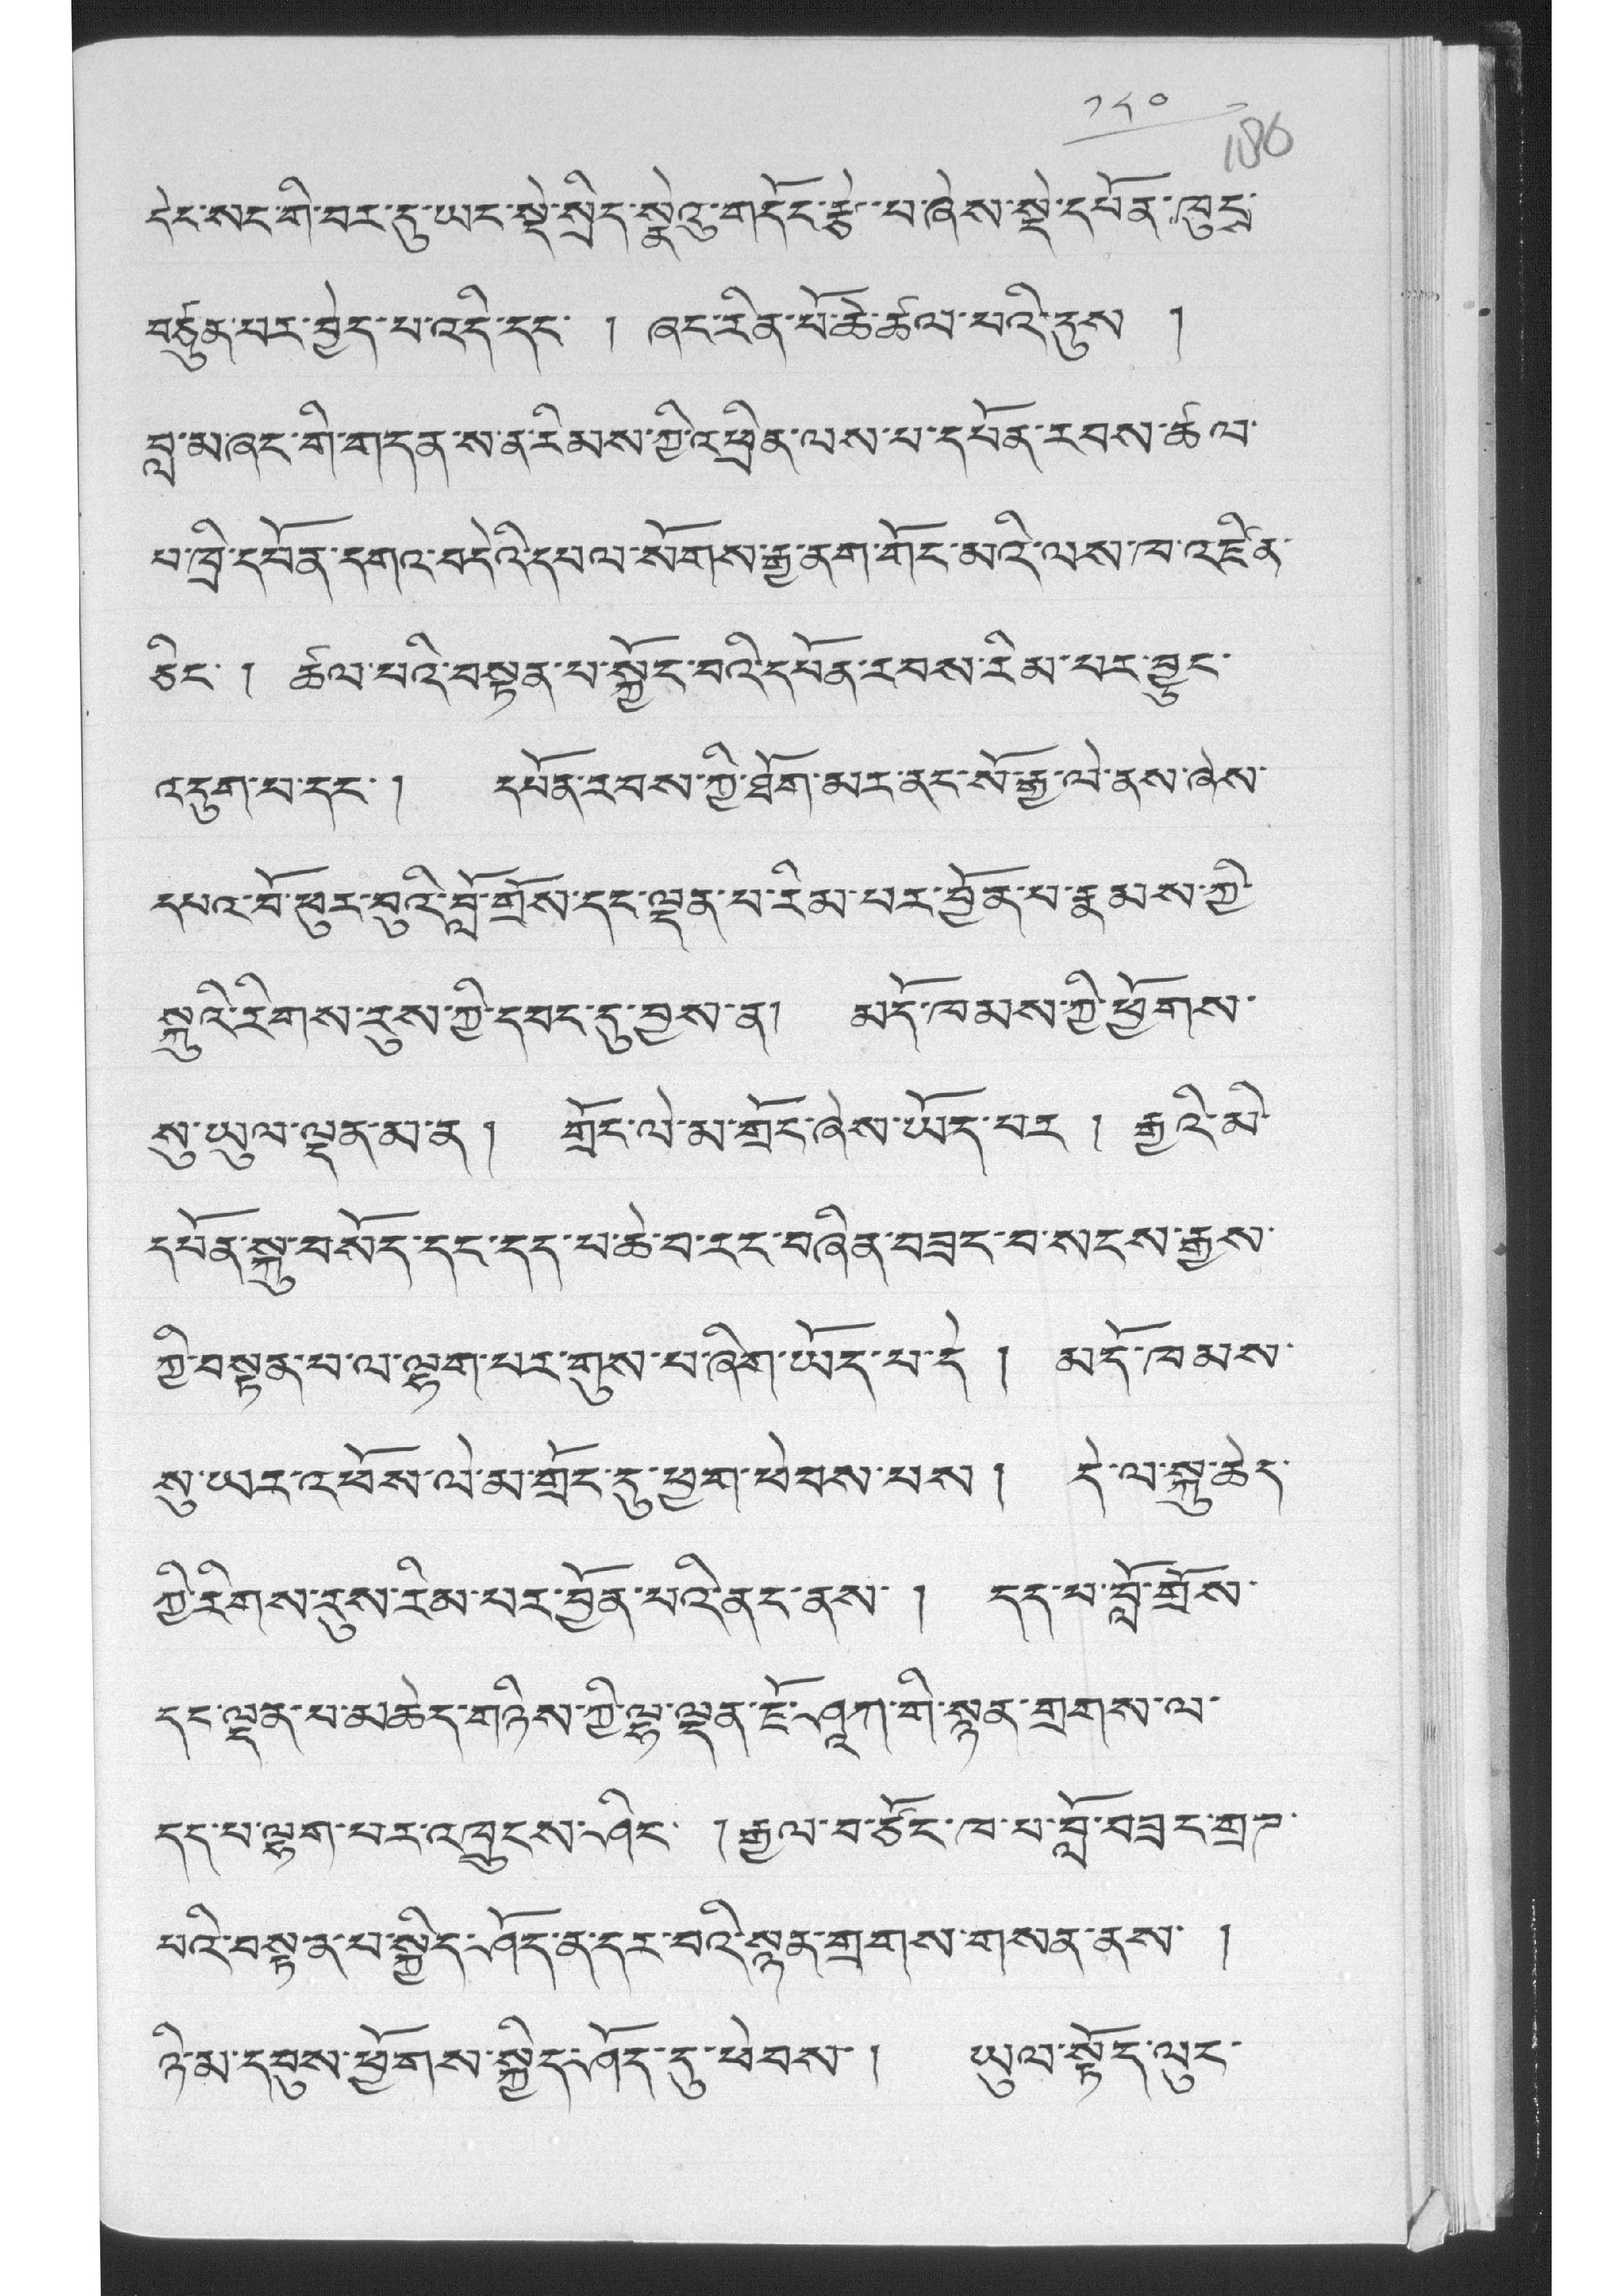༡༨༠
དེང་སང་གི་བར་དུ་ཡང་སྡེ་སྲིད་སྣེའུ་གདོང་རྩེ་པ་ཞེས་སྡེ་དཔོན་ཁུངས་
བཙུན་པར་བྱེད་པ་འདི་དང་ ། ཞང་རིན་པོ་ཆེ་ཚལ་པའི་དུས །
བླ་མཞང་གི་གདན་ས་ན་རིམས་ཀྱི་འཕྲིན་ལས་པ་དཔོན་རབས་ཚལ་
པ་ཁྲི་དཔོན་དགའ་བདེའི་དཔལ་སོགས་རྒྱ་ནག་གོང་མའི་ལས་ཁ་འཛིན་
ཅིང་ ། ཚལ་པའི་བསྟན་པ་སྐྱོང་བའི་དཔོན་རབས་རིམ་པར་བྱུང་
འདུག་པ་དང་། དཔོན་རབས་ཀྱི་ཐོག་མར་ནང་སོ་རྒྱ་ལེ་ནས་ཞེས་
དཔའ་བོ་ཕུར་བུའི་བློ་གྲོས་དང་ལྡན་པ་རིམ་པར་བྱོན་པ་རྣམས་ཀྱི་
སྐུའི་རིགས་རུས་ཀྱི་དབང་དུ་བྱས་ན། མདོ་ཁམས་ཀྱི་ཕྱོགས་
སུ་ཡུལ་ལྡན་མ་ན ། གྲོང་ལེ་མ་གྲོང་ཞེས་ཡོད་པར ། རྒྱའི་མི་
དཔོན་སྐུ་བསོད་དང་དད་པ་ཆེ་བ་རང་བཞིན་བཟང་བ་སངས་རྒྱས་
ཀྱི་བསྟན་པ་ལ་ལྷག་པར་གུས་པ་ཞིག་ཡོད་པ་དེ ། མདོ་ཁམས་
སུ་ཡར་འཕོས་ལེ་མ་གྲོང་དུ་ཕྱག་ཕེབས་པས ། དེ་ལ་སྐུ་ཆེད་
ཀྱི་རིགས་རུས་རིམ་པར་བྱོན་པའི་ནང་ནས་ ། དད་པ་བློ་གྲོས་
དང་ལྡན་པ་མཆེད་གཉིས་ཀྱི་ལྷ་ལྡན་ཇོ་ཤཱཀ་གི་སྙན་གྲགས་ལ་
དད་པ་ལྷག་པར་འཁྲུངས་ཤིང་ ། རྒྱལ་བ་ཙོང་ཁ་པ་བློ་བཟང་གྲཊ་
པའི་བསྟན་པ་སྐྱིད་ཤོད་ན་དར་བའི་སྙན་གྲགས་གསན་ནས་ །
ཉི་མ་དབུས་ཕྱོགས་སྐྱིད་ཤོད་དུ་ཕེབས་ ། ཡུལ་སྟོད་ལུང་
